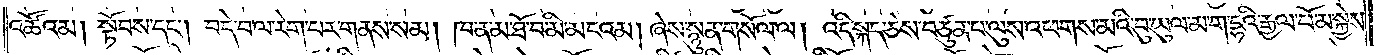འཚོའམ། སྟོབས་དང༌། བདེ་བ་ལ་རེག་པར་གནས་སམ། ཁ་ན་མ་ཐོ་བ་མི་མངའམ། ཞེས་སྙུན་གསོལ་ལ། འདི་སྐད་ཅེས་བཙུན་པ་ལུས་འཕགས་མའི་བུ་ཡུལ་ག་དྷའི་རྒྱལ་པོ་མ་སྐྱེས་
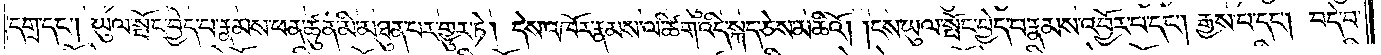དགྲ་དང༌། ཡུལ་སྤོང་བྱེད་པ་རྣམས་ཕན་ཚུན་མི་མཐུན་པར་གྱུར་ཏེ། དེས་འཁོར་རྣམས་ལ་ཚིག་འདི་སྐད་ཅེས་མཆིའོ། །ངས་ཡུལ་སྤོང་བྱེད་པ་རྣམས་འབྱོར་བ་དང༌། རྒྱས་པ་དང༌། བདེ་བ་
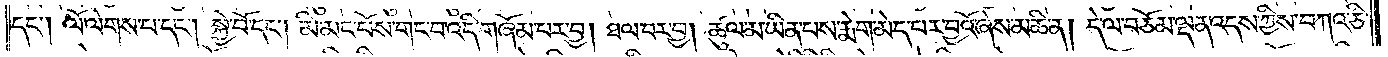དང༌། ལོ་ལེགས་པ་དང༌། སྐྱེ་བོ་དང༌། མི་མང་པོས་གང་བ་འདི་གཞོམ་པར་བྱ། །ཐལ་བར་བྱ། ཚུལ་མ་ཡིན་པས་རྨེག་མེད་པར་བྱའོ་ཞེས་མཆི་ན། དེ་ལ་བཅོམ་ལྡན་འདས་ཀྱིས་བཀའ་ཅི་
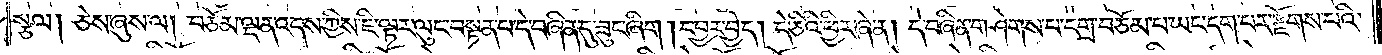སྩལ། ཅེས་ཞུས་ལ། བཅོམ་ལྡན་འདས་ཀྱིས་ཇི་ལྟར་ལུང་བསྟན་པ་དེ་བཞིན་དུ་ཟུང་ཞིག །དབྱར་བྱེད། དེ་ཅིའི་ཕྱིར་ཞེ་ན། དེ་བཞིན་གཤེགས་པ་དགྲ་བཅོམ་པ་ཡང་དག་པར་རྫོགས་པའི་
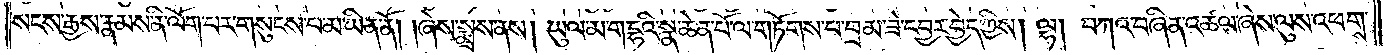སངས་རྒྱས་རྣམས་ནི་ལོག་པར་གསུངས་པ་མ་ཡིན་ནོ། །ཞེས་སྨྲས་ནས། ཡུལ་མ་ག་དྷའི་སྣ་ཆེན་པོ་ལ་གཏོགས་པ་བྲམ་ཟེ་དབྱར་བྱེད་ཀྱིས། ལྷ། བཀའ་བཞིན་འཚལ་ཞེས་ལུས་འཕགས་
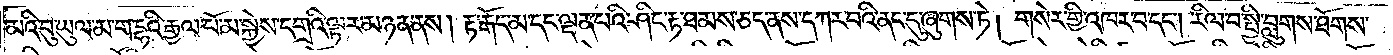མའི་བུ་ཡུལ་མ་ག་དྷའི་རྒྱལ་པོ་མ་སྐྱེས་དགྲའི་ལྟར་མཉན་ནས། རྟ་རྒོད་མ་དང་ལྡན་པའི་ཤིང་རྟ་ཐམས་ཅད་ནས་དཀར་བའི་ནང་དུ་ཞུགས་ཏེ། གསེར་གྱི་འཁར་བ་དང༌། རིལ་བ་སྤྱི་བླུགས་ཐོགས་
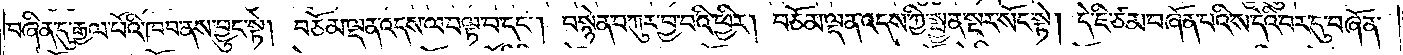བཞིན་དུ་རྒྱལ་པོའི་ཁབ་ནས་བྱུང་སྟེ། བཅོམ་ལྡན་འདས་ལ་བལྟ་བ་དང༌། བསྙེན་བཀུར་བྱ་བའི་ཕྱིར། བཅོམ་ལྡན་འདས་ཀྱི་སྤྱན་སྔར་སོང་སྟེ། དེ་ཇི་ཙམ་བཞོན་པའི་ས་དེའི་བར་དུ་བཞོན་
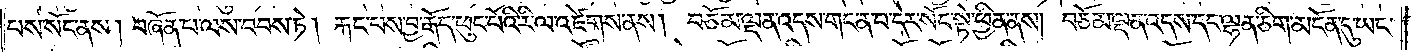པས་སོང་ནས། བཞོན་པ་ལས་བབས་ཏེ། རྐང་པས་བྱ་རྒོད་ཕུང་པོའི་རི་ལ་འཛེགས་ནས། བཅོམ་ལྡན་འདས་གང་ན་བ་དེར་སོང་སྟེ་ཕྱིན་ནས། བཅོམ་ལྡན་འདས་དང་ལྷན་ཅིག་མངོན་དུ་ཡང་
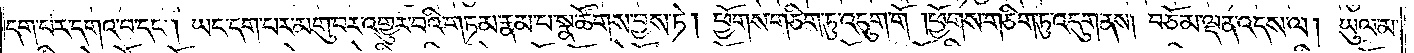དག་པར་དགའ་བ་དང༌། ཡང་དག་པར་མགུ་བར་འགྱུར་བའི་གཏམ་རྣམ་པ་སྣ་ཚོགས་བྱས་ཏེ། ཕྱོགས་གཅིག་ཏུ་འདུག་གོ། །ཕྱོགས་གཅིག་ཏུ་འདུག་ནས། བཅོམ་ལྡན་འདས་ལ། ཡུལ་མ་
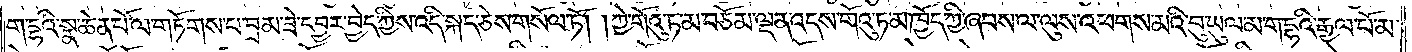ག་དྷའི་སྣ་ཆེན་པོ་ལ་གཏོགས་པ་བྲམ་ཟེ་དབྱར་བྱེད་ཀྱིས་འདི་སྐད་ཅེས་གསོལ་ཏོ། །ཀྱེ་གོའུ་ཏ་མ་བཅོམ་ལྡན་འདས་གོའུ་ཏ་མ་ཁྱོད་ཀྱི་ཞབས་ལ་ལུས་འཕགས་མའི་བུ་ཡུལ་མ་ག་དྷའི་རྒྱལ་པོ་མ་
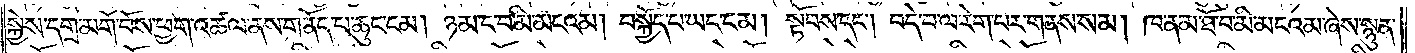སྐྱེས་དགྲ་མགོ་བོས་ཕྱག་འཚལ་ནས་གནོད་པ་ཆུང་ངམ། ཉམ་ང་བ་མི་མངའམ། བསྐྱོད་པ་ཡང་ངམ། སྟོབས་དང༌། བདེ་བ་ལ་རེག་པར་གནས་སམ། ཁ་ན་མ་ཐོ་བ་མི་མངའམ་ཞེས་སྙུན་
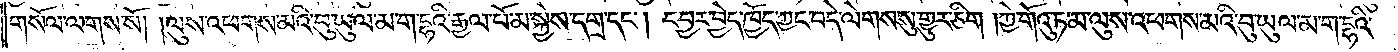གསོལ་ལགས་སོ། །ལུས་འཕགས་མའི་བུ་ཡུལ་མ་ག་དྷའི་རྒྱལ་པོ་མ་སྐྱེས་དགྲ་དང༌། དབྱར་བྱེད་ཁྱོད་ཀྱང་བདེ་ལེགས་སུ་གྱུར་ཅིག །ཀྱེ་གོའུ་ཏ་མ་ལུས་འཕགས་མའི་བུ་ཡུལ་མ་ག་དྷའི་
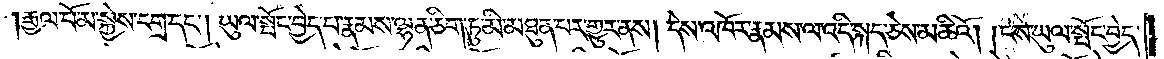རྒྱལ་པོ་མ་སྐྱེས་དགྲ་དང༌། ཡུལ་སྤོང་བྱེད་པ་རྣམས་ལྷན་ཅིག་ཏུ་མི་མཐུན་པར་གྱུར་ནས། དེས་འཁོར་རྣམས་ལ་འདི་སྐད་ཅེས་མཆིའོ། །ངས་ཡུལ་སྤོང་བྱེད་
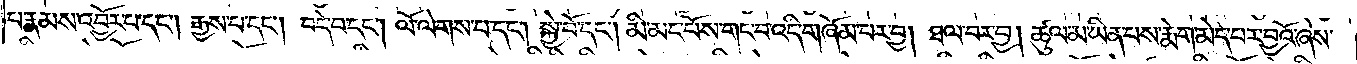པ་རྣམས་འབྱོར་པ་དང༌། རྒྱས་པ་དང༌། བདེ་བ་དང༌། ལོ་ལེགས་པ་དང༌། སྐྱེ་བོ་དང༌། མི་མང་པོས་གང་བ་འདི་གཞོམ་པར་བྱ། ཐལ་བར་བྱ། ཚུལ་མ་ཡིན་པས་རྨེག་མེད་པར་བྱའོ་ཞེས་
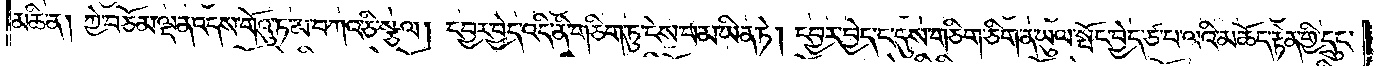མཆི་ན། ཀྱེ་བཅོམ་ལྡན་འདས་གོའུ་ཏ་མ་བཀའ་ཅི་སྩལ། དབྱར་བྱེད་འདི་ནི་གཅིག་ཏུ་ངེས་པ་མ་ཡིན་ཏེ། དབྱར་བྱེད་ང་དུས་གཅིག་ཅིག་ན་ཡུལ་སྤོང་བྱེད་ཙ་པ་ལའི་མཆོད་རྟེན་གྱི་དྲུང་
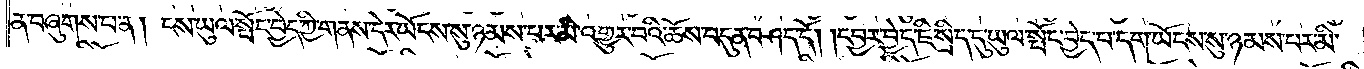ན་བཞུགས་པ་ན། ངས་ཡུལ་སྤོང་བྱེད་ཀྱི་གནས་དེར་ཡོངས་སུ་ཉམས་པར་མི་འགྱུར་བའི་ཆོས་བདུན་བཤད་དོ། །དབྱར་བྱེད་ཇི་སྲིད་དུ་ཡུལ་སྤོང་བྱེད་པ་དག་ཡོངས་སུ་ཉམས་པར་མི་
